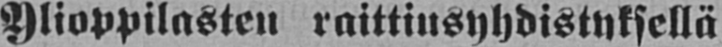Ylioppilasten raittiusyhdistyksellä
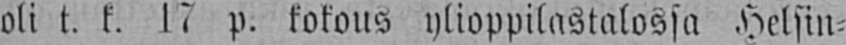oli t. k. 17 p. kokous ylioppilastalossa Helsin-
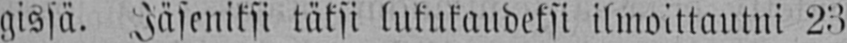gissä. Jäseniksi täksi lukukaudeksi ilmoittautni 23
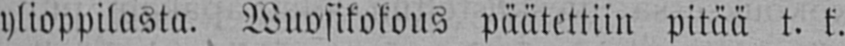ylioppilasta. Wuosikokous päätettiin pitää t. k.
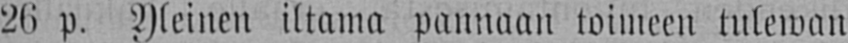26 p. Yleinen iltama pannaan toimeen tulewan
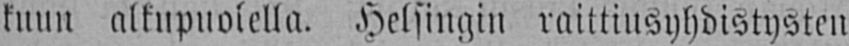kuun alkupuolella. Helsingin raittiusyhdistysten
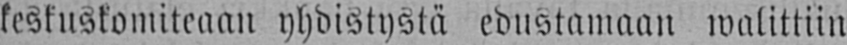keskuskomiteaan yhdistystä edustamaan walittiin
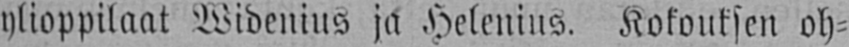ylioppilaat Widenius ja Helenius. Kokouksen oh-
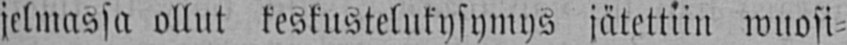jelmassa ollut keskustelukysymys jätettiin wuosi-
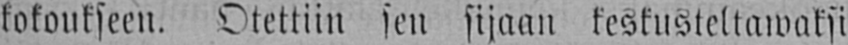kokoukseen. Otettiin sen sijaan keskusteltawaksi
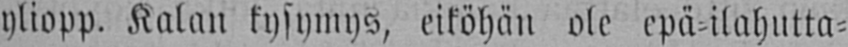yliopp. Kalan kysymys, eiköhän ole epä-ilahutta-
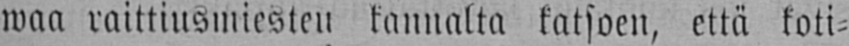waa raittiusmiesten kannalta katsoen, että koti-
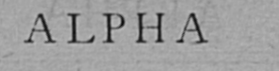ALPHA
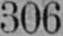306
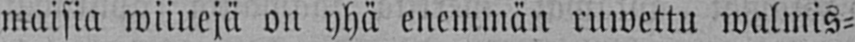maisia wiiuejä on yhä enemmän ruwettu walmis-
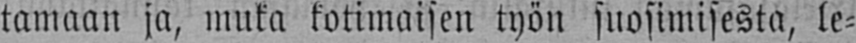tamaan ja, muka kotimaisen työn suosimisesta, le-
